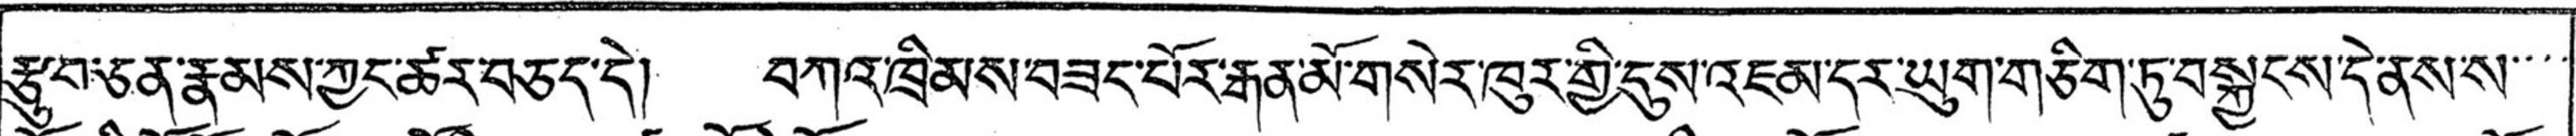རྩུབ་ཅན་རྣམས་ཀྱང་ཚར་བཅད་དེ། བཀའ་ཁྲིམས་བཟང་པོར་རྒན་མོ་གསེར་ཁུར་གྱི་དུས་འཇམ་དར་ཡུག་གཅིག་ཏུ་བསྐྱངས་དེ་ནས་ས་་་་
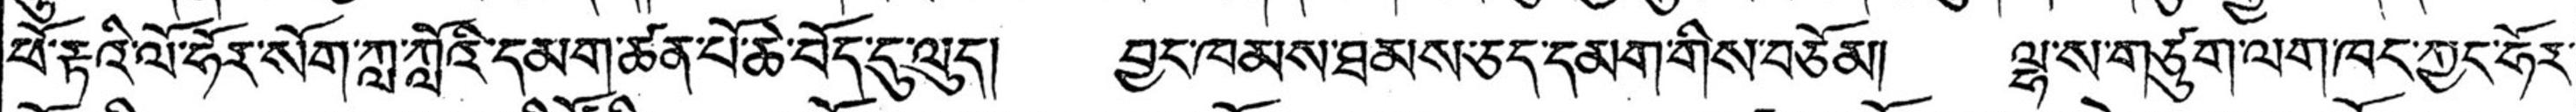ཕོ་རྟའི་ལོ་ཧོར་སོག་ཀླ་ཀློའི་དམག་ཚན་པོ་ཆེ་བོད་དུ་ལུད། བྱང་ཁམས་ཐམས་ཅད་དམག་གིས་བཅོམ། ལྷ་ས་གཙུག་ལག་ཁང་ཀྱང་ཧོར་
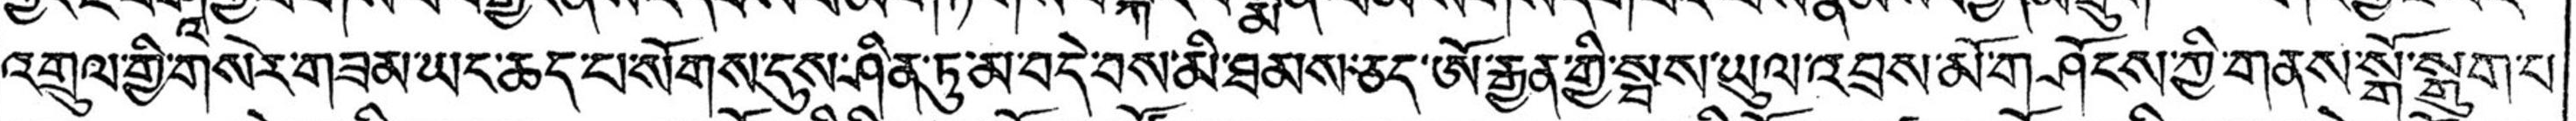འགྲུལ་གྱི་གསེར་གཟམ་ཡང་ཆད་པ་སོགས་དུས་ཤིན་ཏུ་མ་བདེ་བས་མི་ཐམས་ཅད་ཨོ་རྒྱན་གྱི་སྦས་ཡུལ་འབྲས་མོ་གཤོངས་ཀྱི་གནས་སྒོ་སྒུག་པ་
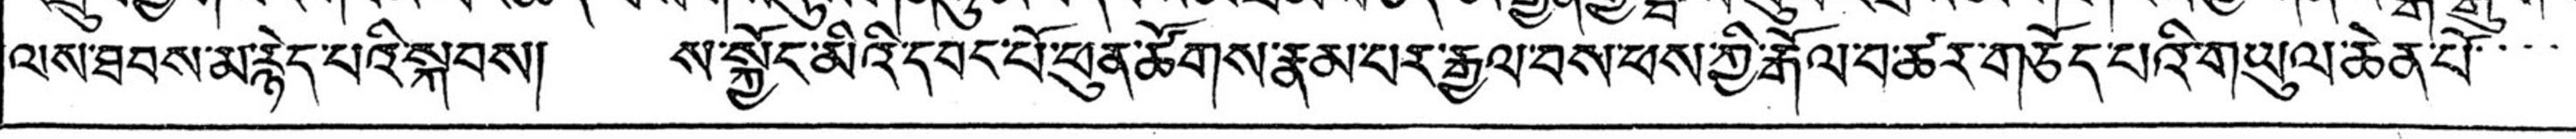ལས་ཐབས་མ་རྙེད་པའི་སྐབས། ས་སྐྱོང་མིའི་དབང་པོ་ཕུན་ཚོགས་རྣམ་པར་རྒྱལ་བས་ཕས་ཀྱི་རྒོལ་བ་ཚར་གཅོད་པའི་གཡུལ་ཆེན་པོ་་་་
